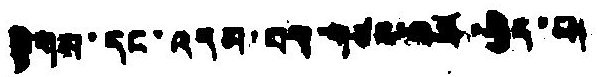སྙིགས་དང་འདམ་པར་གཙང་བཟོ་བྱེད་པ།
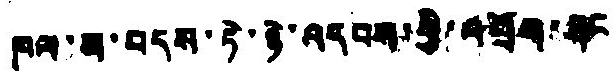ཁལ་མ་བདས་ཏེ་ཉེ་འདབས་གྱི་འཕྲོག་གང
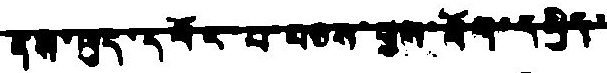ནས་ལུད་དལོར་པ་བཅས་གུས་ལོག་དཔྱིད་
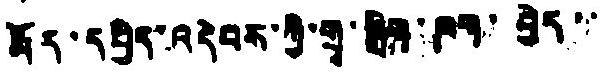རྨོར་དཔྱིད་འདེབས་ཀྱི་གྲྭ་སྒྲིག་ཁག་བྱེད་་
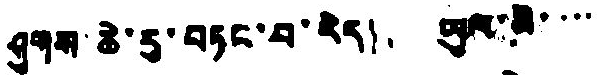ཤུགས་ཆེ་རུ་བཏང་བ་རེད། ཡུལ་མི་་་་
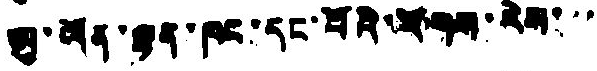ཨུ་ཡོན་ལྷན་ཁང་དང་པོའི་རོགས་རེས་་་
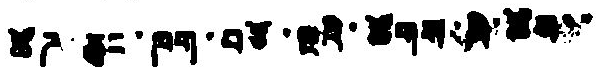ཚོཌ་ཆུང་ཁག་བཅོ་ལྔའི་ཚོགས་མི་ཚོས་་
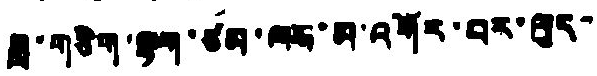ཟླ་གཅིག་ལྷག་ཙམ་ལས་མ་འགོར་བར་ལུད་
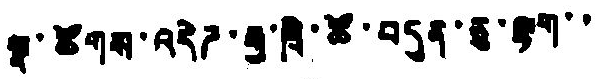སྣ་ཚགོས་འདེཌ་རྒྱ་ཁྲི་ཚོ་བདུན་ཅུ་ལྷག་་
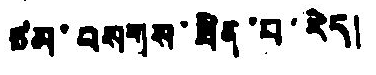ཙམ་བསགས་ཟིན་པ་རེད།
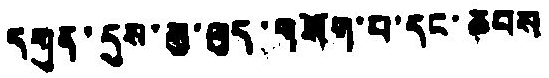དགུན་དུས་སུ་ལུད་གསོག་པ་དང་ཆབས
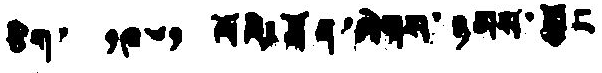ཅིག་ ༡༩༦༡ ལོའི་ཐོན་ལེགས་ཉམས་མྱོང
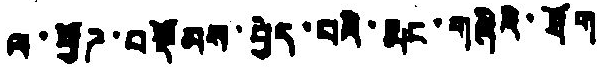ལ་ཕྱོཌ་བསྡོམས་བྱེད་པའི་རྨང་གཞིའི་ཐོག
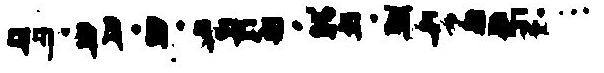ཕག་རིའི་མི་དམངས་ཚོས་སོན་བཟང་་་་
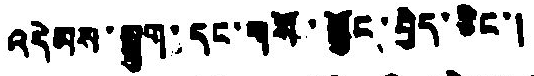འདེམས་སྒྲུག་དང་གསོ་སྐྱོང་བྱེད་ཅིང་།
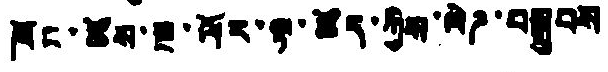ཁོང་ཚོས་སྔ་ལོར་ལྟ་ཚོད་ཀྱིས་ལེཌ་བསྒྲུབས
